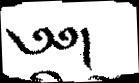༄༅།
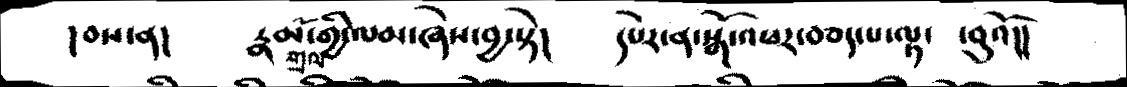།བས་ན།    རྣམ་གྲོལ་གྱི་ལམ་ཞེས་སྟེ།    དཔེར་ན་སྒོ་འཕར་བཅད་པ་ལྟ་  ་བུའོ།།
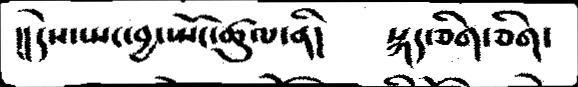།།དེས་སྤང་བྱ་སྤོང་ཚུལ་ནི།    སྐད་ཅིག་ཅིག་
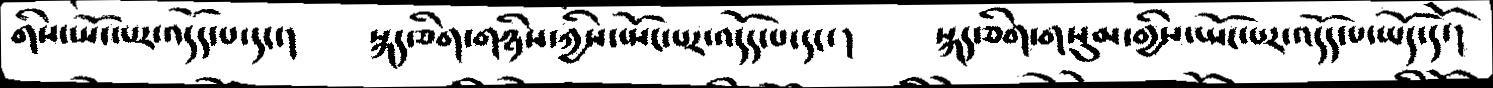གིས་སྤོང་པར་འདོད་པ་དང་།   སྐད་ཅིག་གཉིས་ཀྱིས་སྤོང་པར་འདོད་པ་དང་།   སྐད་ཅིག་གསུམ་གྱིས་སྤོང་པར་འདོད་པ་ཡོད་དོ།
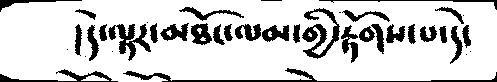།དེ་ལྟར་མཐོང་ལམ་གྱི་རྟོགས་པ་དེ་
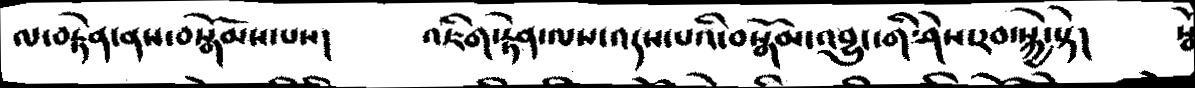ལ་བརྟེན་ནས་བསྒོམས་པས།    འཇིག་རྟེན་ལས་འདས་པའི་བསྒོམ་འབྱུང་གི་ཤེས་རབ་སྐྱེ་སྟེ།
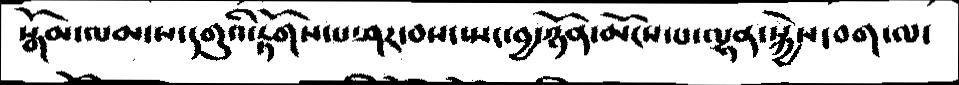སྒོམ་ལམ་ས་དགུའི་རྟོགས་པ་ཤར་བས་སྤང་བྱ་ཉོན་མོངས་པ་ལྷན་སྐྱེས་བག་ལ་
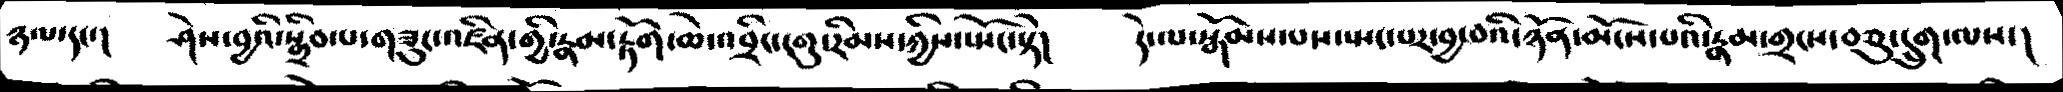ཉལ་དང་།   ཤེས་བྱའི་སྒྲིབ་པ་གཟུང་འཛིན་གྱི་རྣམ་རྟོགཆེ་འབྲིང་དགུ་རིམས་ཀྱིས་སྤོང་སྟེ།    དེ་ལ་སྒོམས་པས་སྤང་པར་བྱ་བའི་ཉོན་མོངས་པའི་རྣམ་གྲངས་བཅུ་དྲུག་ལས་།
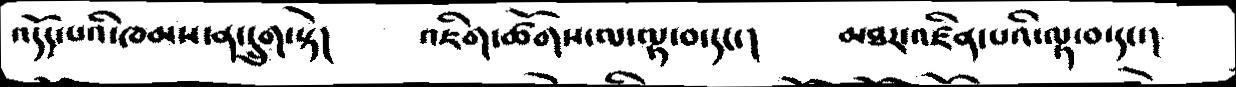འདོད་པའི་ཁམས་ན་དྲུག་སྟེ།    འཇིག་ཚོགས་ལ་ལྟ་བ་དང་།    མཐར་འཛིན་པའི་ལྟ་བ་དང་།
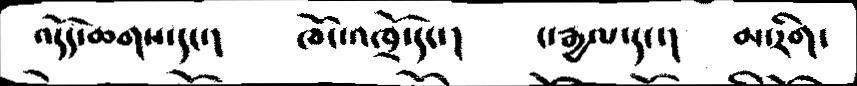འདོད་ཆགས་དང་།   ཁོང་འཁྲོ་དང་།  ང་རྒྱལ་དང་།   མ་རིག་
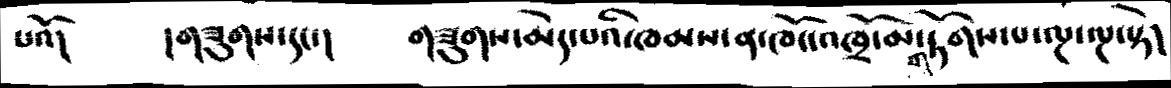པའོ།   །གཟུགས་དང་།   གཟུགས་མེད་པའི་ཁམས་ན་ཁོང་འཁྲོ་མ་གཏོགས་པ་ལྔ་ལྔ་སྟེ།
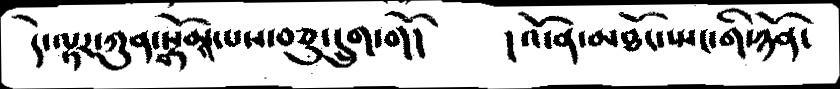དེ་ལྟར་ཀུན་བསྡོམས་པས་བཅུ་དྲུག་གོ།    །འོ་ན་མཐོང་སྤང་གི་ཉོན་
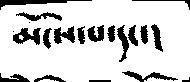མོངས་པ་དང་།
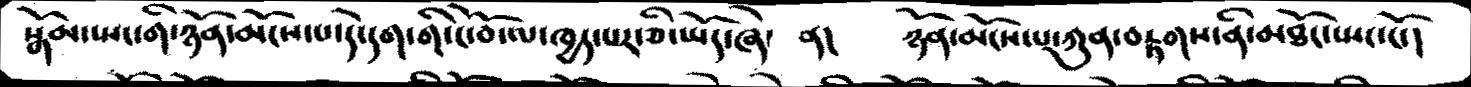སྒོམ་སྤང་གི་ཉོན་མོངས་པ་དེ་དག་གི་ངོ་བོ་ལ་ཁྱད་པར་ཅི་ཡོད་ཞེ་  ན།    ཉོན་མོངས་པ་ཀུན་བརྟགས་ནི་མཐོང་སྤང་ངོ་།
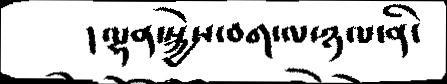།ལྷན་སྐྱེས་བག་ལ་ཉལ་ནི་
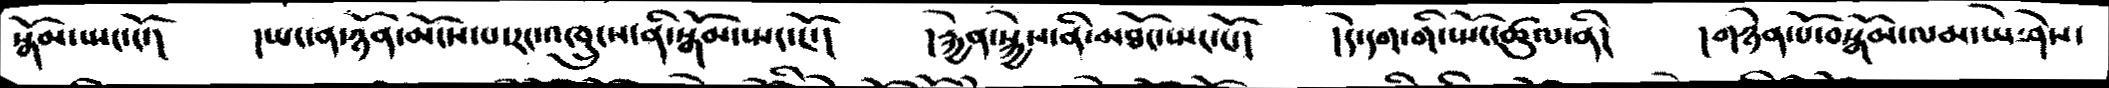སྒོམ་སྤང་ངོ་།    །ཡང་ན་ཉོན་མོངས་པ་རང་འཁྲུངས་ནི་སྒོམ་སྤང་ངོ་།    །རྐྱེན་སྐྱེས་ནི་མཐོང་སྤང་ངོ་།    །དེ་དག་གི་སྤོང་ཚུལ་ནི།    །གཉེན་པོ་བསྒོམ་ལམ་ཡེ་ཤེས་
